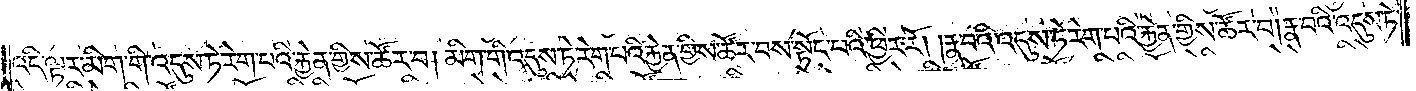འདི་ལྟར་མིག་གི་འདུས་ཏེ་རེག་པའི་རྐྱེན་གྱིས་ཚོར་བ། མིག་གི་འདུས་ཏེ་རེག་པའི་རྐྱེན་གྱིས་ཚོར་བས་སྟོང་པའི་ཕྱིར་རོ། །རྣ་བའི་འདུས་ཏེ་རེག་པའི་རྐྱེན་གྱིས་ཚོར་བ། རྣ་བའི་འདུས་ཏེ་
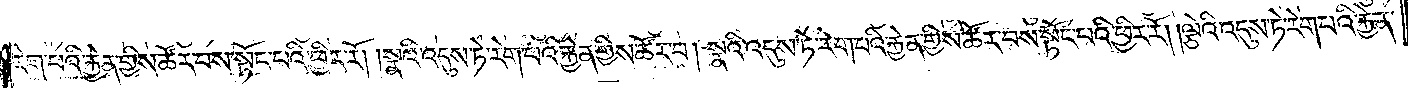རེག་པའི་རྐྱེན་གྱིས་ཚོར་བས་སྟོང་པའི་ཕྱིར་རོ། །སྣའི་འདུས་ཏེ་རེག་པའི་རྐྱེན་གྱིས་ཚོར་བ། སྣའི་འདུས་ཏེ་རེག་པའི་རྐྱེན་གྱིས་ཚོར་བས་སྟོང་པའི་ཕྱིར་རོ། །ལྕེའི་འདུས་ཏེ་རེག་པའི་རྐྱེན་
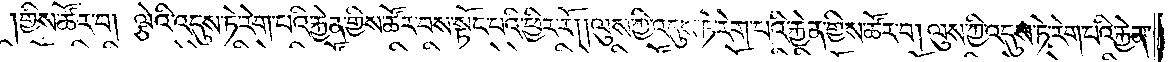གྱིས་ཚོར་བ། ལྕེའི་འདུས་ཏེ་རེག་པའི་རྐྱེན་གྱིས་ཚོར་བས་སྟོང་པའི་ཕྱིར་རོ། །ལུས་ཀྱི་འདུས་ཏེ་རེག་པའི་རྐྱེན་གྱིས་ཚོར་བ། ལུས་ཀྱི་འདུས་ཏེ་རེག་པའི་རྐྱེན་
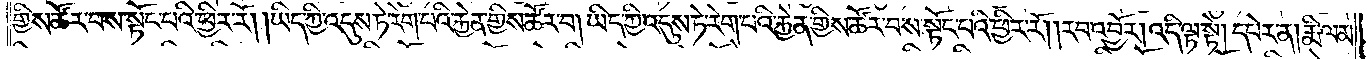གྱིས་ཚོར་བས་སྟོང་པའི་ཕྱིར་རོ། །ཡིད་ཀྱི་འདུས་ཏེ་རེག་པའི་རྐྱེན་གྱིས་ཚོར་བ། ཡིད་ཀྱི་འདུས་ཏེ་རེག་པའི་རྐྱེན་གྱིས་ཚོར་བས་སྟོང་པའི་ཕྱིར་རོ། །རབ་འབྱོར། འདི་ལྟ་སྟེ། དཔེར་ན། རྨི་ལམ་
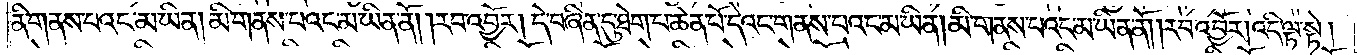ནི་གནས་པའང་མ་ཡིན། མི་གནས་པའང་མ་ཡིན་ནོ། །རབ་འབྱོར། དེ་བཞིན་དུ་ཐེག་པ་ཆེན་པོ་དེའང་གནས་པའང་མ་ཡིན། མི་གནས་པའང་མ་ཡིན་ནོ། །རབ་འབྱོར། འདི་ལྟ་སྟེ།
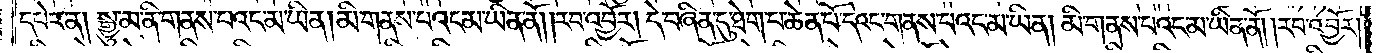དཔེར་ན། སྒྱུ་མ་ནི་གནས་པའང་མ་ཡིན། མི་གནས་པའང་མ་ཡིན་ནོ། །རབ་འབྱོར། དེ་བཞིན་དུ་ཐེག་པ་ཆེན་པོ་དེའང་གནས་པའང་མ་ཡིན། མི་གནས་པའང་མ་ཡིན་ནོ། །རབ་འབྱོར།
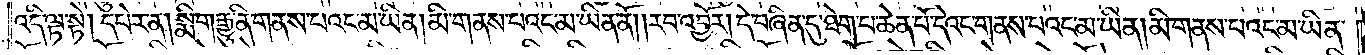འདི་ལྟ་སྟེ། དཔེར་ན། སྨིག་རྒྱུ་ནི་གནས་པའང་མ་ཡིན། མི་གནས་པའང་མ་ཡིན་ནོ། །རབ་འབྱོར། དེ་བཞིན་དུ་ཐེག་པ་ཆེན་པོ་དེའང་གནས་པའང་མ་ཡིན། མི་གནས་པའང་མ་ཡིན་
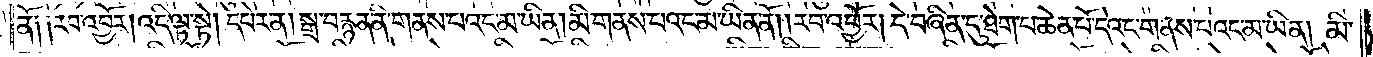ནོ། །རབ་འབྱོར། འདི་ལྟ་སྟེ། དཔེར་ན། སྒྲ་བརྙན་ནི་གནས་པའང་མ་ཡིན། མི་གནས་པའང་མ་ཡིན་ནོ། །རབ་འབྱོར། དེ་བཞིན་དུ་ཐེག་པ་ཆེན་པོ་དེའང་གནས་པའང་མ་ཡིན། མི་
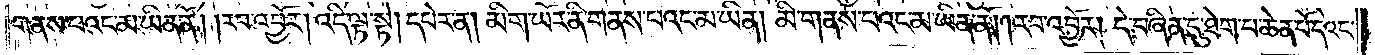གནས་པའང་མ་ཡིན་ནོ། །རབ་འབྱོར། འདི་ལྟ་སྟེ། དཔེར་ན། མིག་ཡོར་ནི་གནས་པའང་མ་ཡིན། མི་གནས་པའང་མ་ཡིན་ནོ། །རབ་འབྱོར། དེ་བཞིན་དུ་ཐེག་པ་ཆེན་པོ་དེའང་
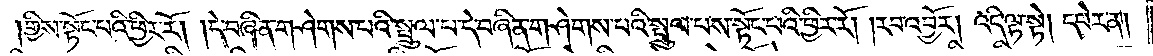གྱིས་སྟོང་པའི་ཕྱིར་རོ། །དེ་བཞིན་གཤེགས་པའི་སྤྲུལ་པ་དེ་བཞིན་གཤེགས་པའི་སྤྲུལ་པས་སྟོང་པའི་ཕྱིར་རོ། །རབ་འབྱོར། འདི་ལྟ་སྟེ། དཔེར་ན།
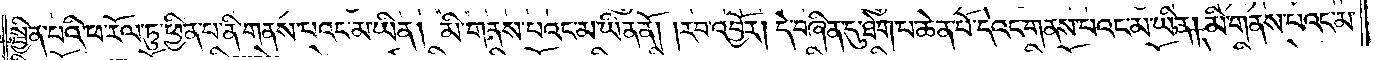སྦྱིན་པའི་ཕ་རོལ་ཏུ་ཕྱིན་པ་ནི་གནས་པའང་མ་ཡིན། མི་གནས་པའང་མ་ཡིན་ནོ། །རབ་འབྱོར། དེ་བཞིན་དུ་ཐེག་པ་ཆེན་པོ་དེའང་གནས་པའང་མ་ཡིན། མི་གནས་པའང་མ་
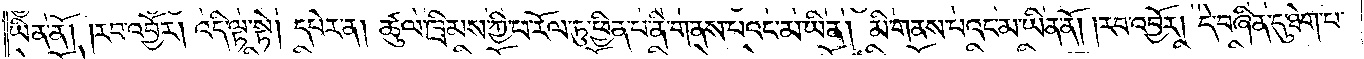ཡིན་ནོ། །རབ་འབྱོར། འདི་ལྟ་སྟེ། དཔེར་ན། ཚུལ་ཁྲིམས་ཀྱི་ཕ་རོལ་ཏུ་ཕྱིན་པ་ནི་གནས་པའང་མ་ཡིན། མི་གནས་པའང་མ་ཡིན་ནོ། །རབ་འབྱོར། དེ་བཞིན་དུ་ཐེག་པ་
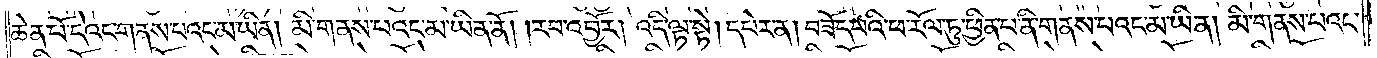ཆེན་པོ་དེའང་གནས་པའང་མ་ཡིན། མི་གནས་པའང་མ་ཡིན་ནོ། །རབ་འབྱོར། འདི་ལྟ་སྟེ། དཔེར་ན། བཟོད་པའི་ཕ་རོལ་ཏུ་ཕྱིན་པ་ནི་གནས་པའང་མ་ཡིན། མི་གནས་པའང་
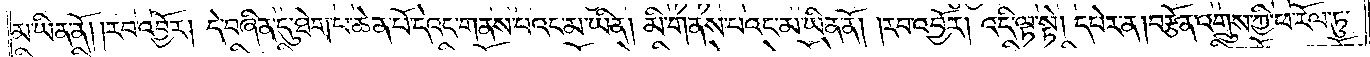མ་ཡིན་ནོ། །རབ་འབྱོར། དེ་བཞིན་དུ་ཐེག་པ་ཆེན་པོ་དེའང་གནས་པའང་མ་ཡིན། མི་གནས་པའང་མ་ཡིན་ནོ། །རབ་འབྱོར། འདི་ལྟ་སྟེ། དཔེར་ན། བརྩོན་འགྲུས་ཀྱི་ཕ་རོལ་ཏུ་
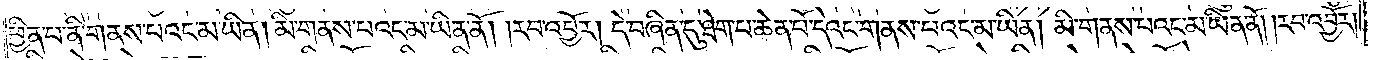ཕྱིན་པ་ནི་གནས་པའང་མ་ཡིན། མི་གནས་པའང་མ་ཡིན་ནོ། །རབ་འབྱོར། དེ་བཞིན་དུ་ཐེག་པ་ཆེན་པོ་དེའང་གནས་པའང་མ་ཡིན། མི་གནས་པའང་མ་ཡིན་ནོ། །རབ་འབྱོར།
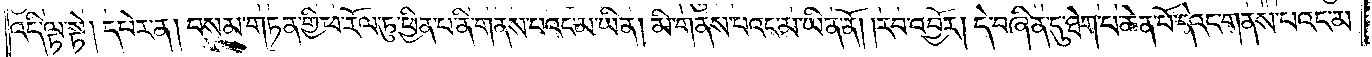འདི་ལྟ་སྟེ། དཔེར་ན། བསམ་གཏན་གྱི་ཕ་རོལ་ཏུ་ཕྱིན་པ་ནི་གནས་པའང་མ་ཡིན། མི་གནས་པའང་མ་ཡིན་ནོ། །རབ་འབྱོར། དེ་བཞིན་དུ་ཐེག་པ་ཆེན་པོ་དེའང་གནས་པའང་མ་
